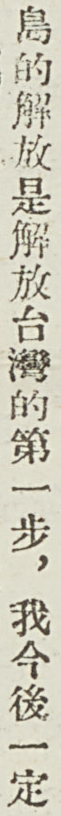島的解放是解放台灣的第一步，我今後一定
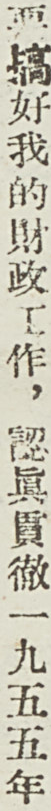要搞好我的財政工作，認眞貫徹一九五五年
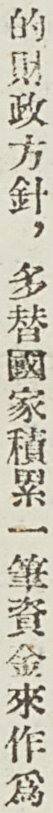的財政方針，多替國家積累一筆資金來作爲
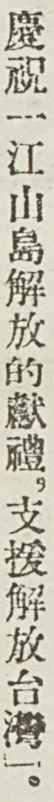慶祝一江山島解放的獻禮，支援解放台灣」。
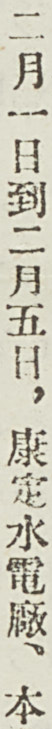二月一日道二月五日，康定水電廠、本
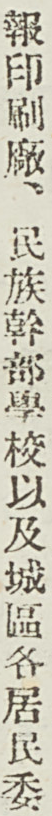報印刷廠、民族幹部學校以及城區各居民委
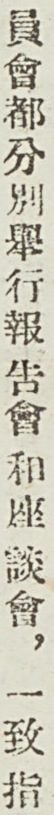員會都分別舉行報告會和座談會，一致指
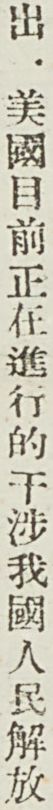出，美國目前正在進行的干涉我國人民解放
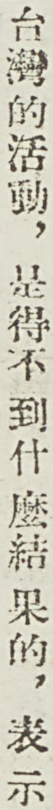台灣的活動，是得不到什麼結果的，表示
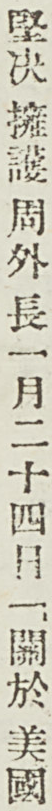堅決擁護周外長一月二十四日「關於美國
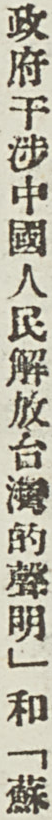政府干涉中國人民解放台灣的聲明」和「蘇
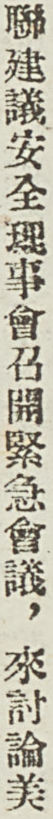聯建議安全理事會召開緊急會議，來討論美
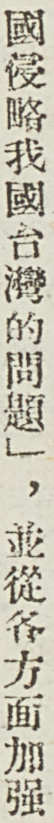國侵略我國台灣的問題」，並從各方面加強
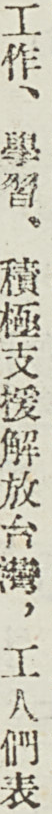工作、學習，積極支援解放台灣，工人們表
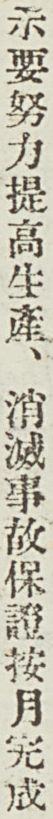示要努力提高生產、消滅事故保證按月完成
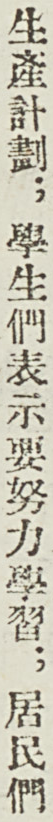生產計劃；學生們表示要努力學習；居民們
